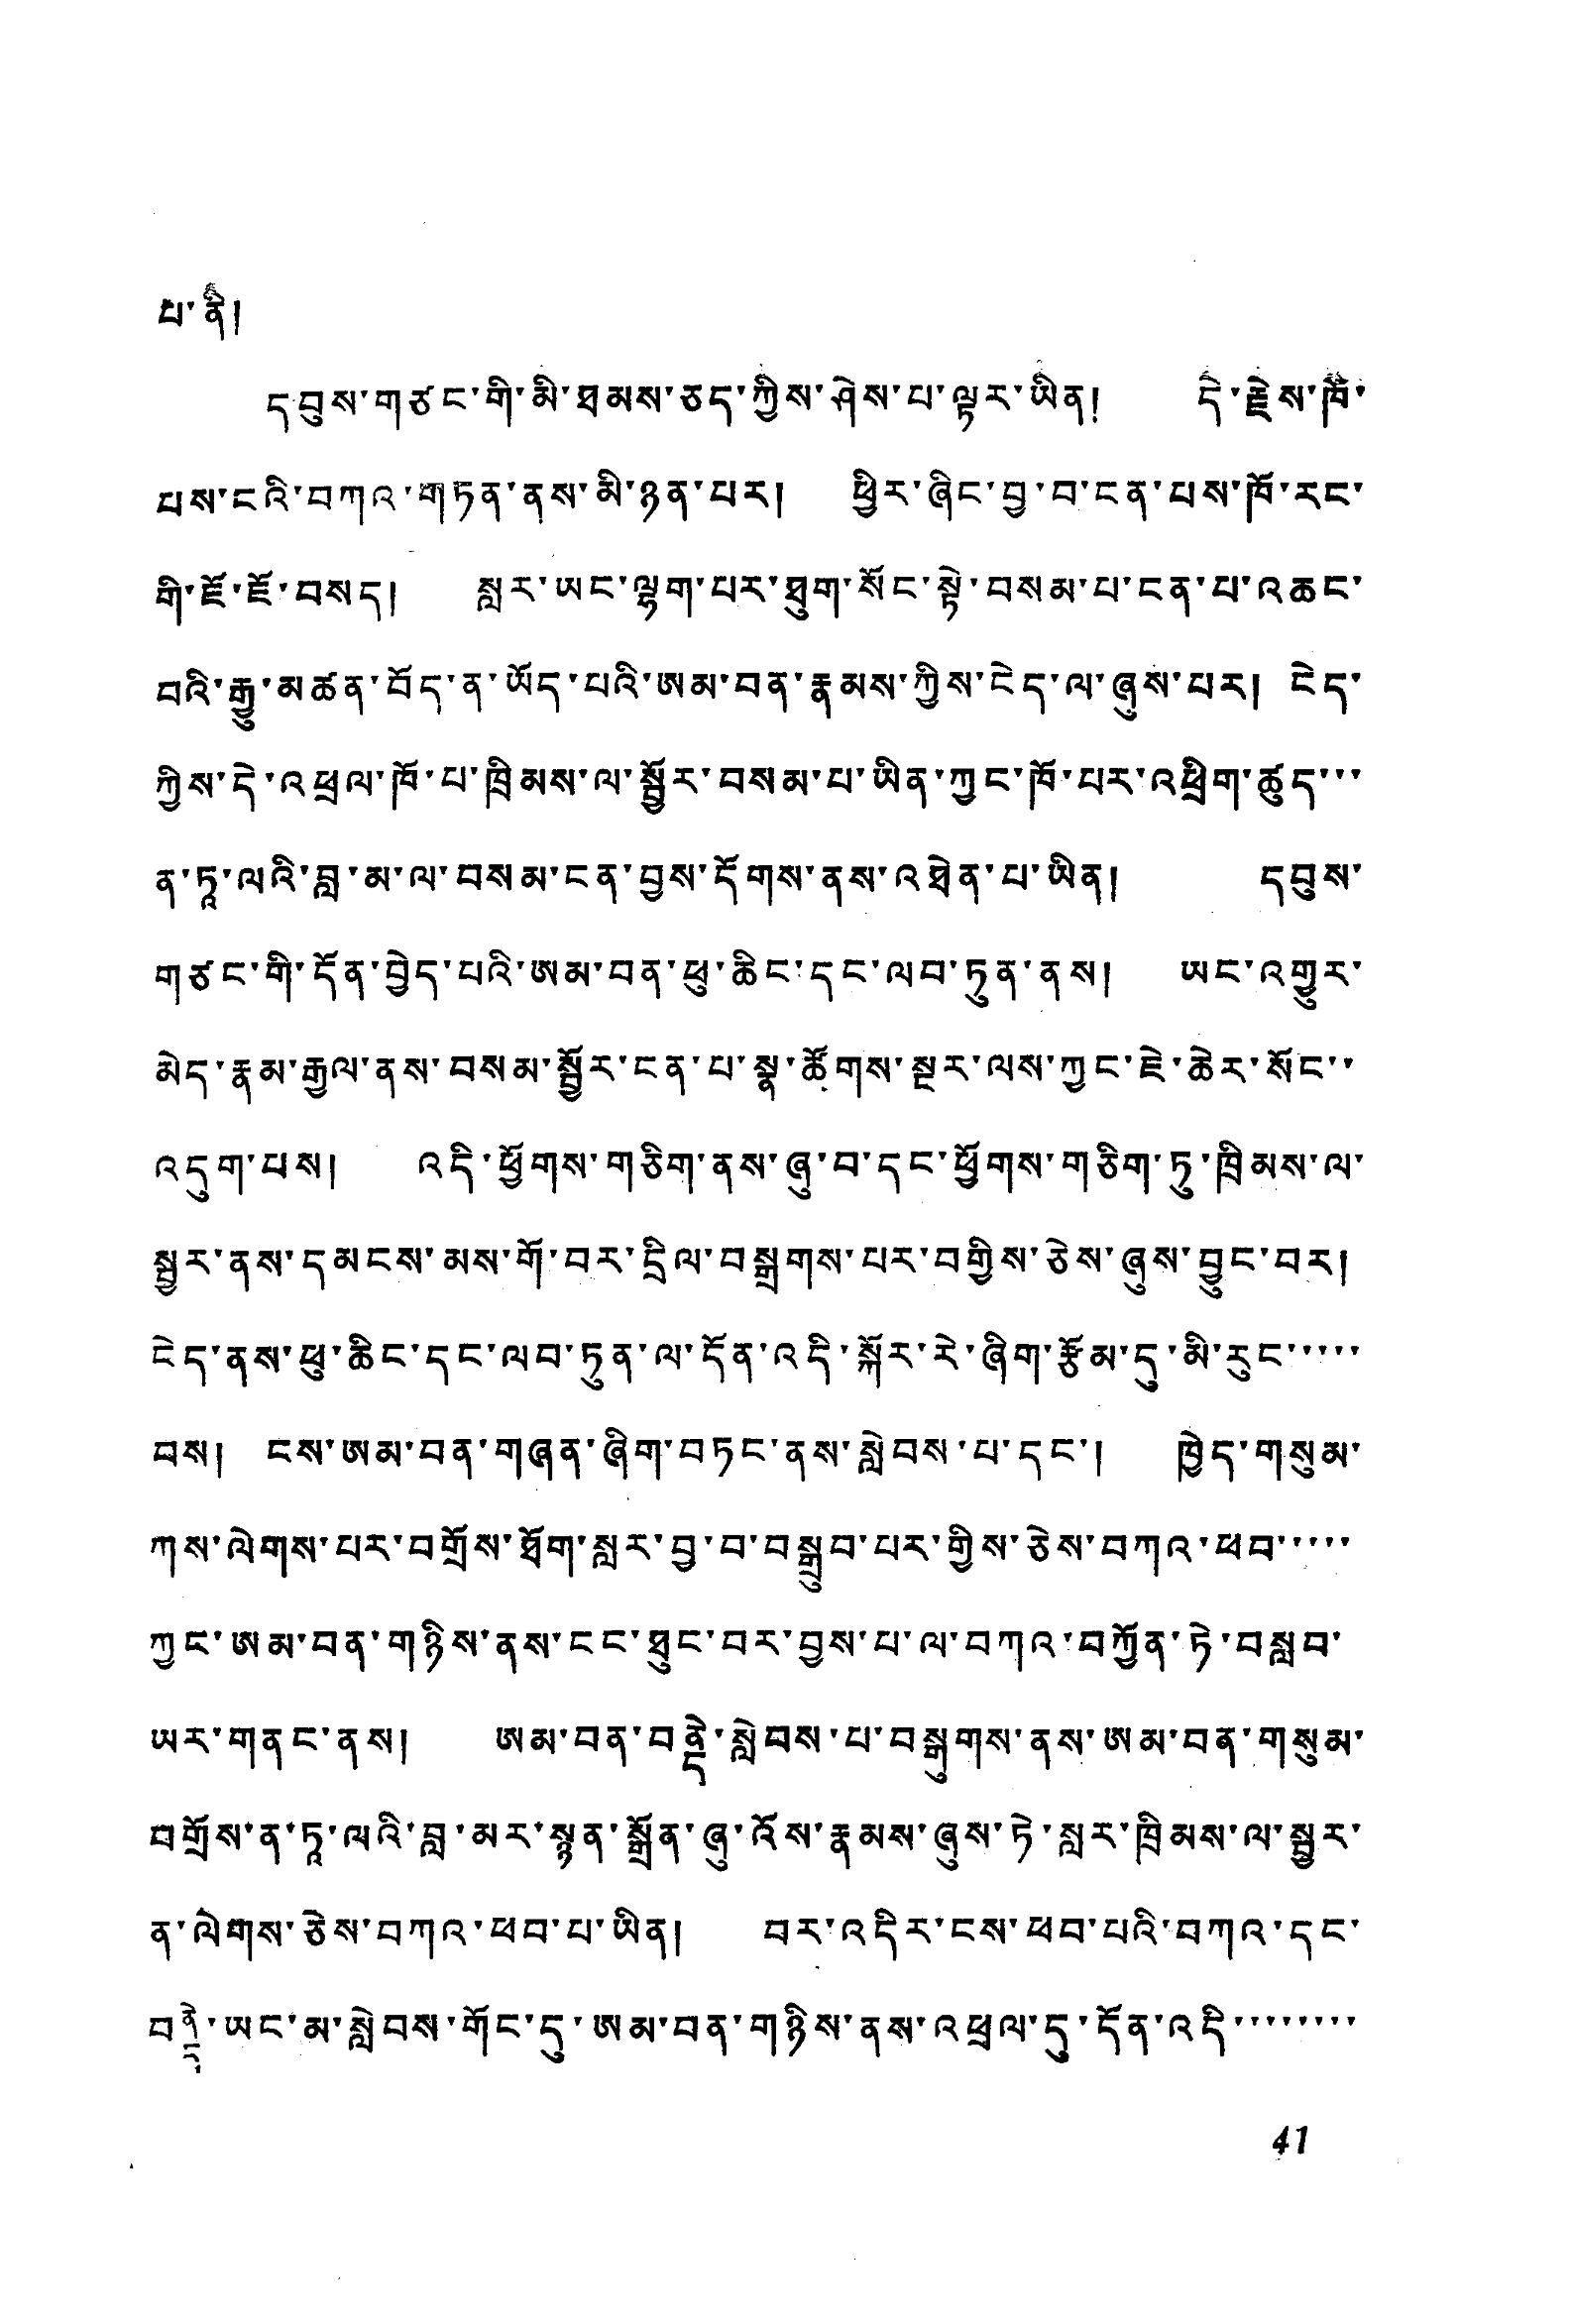པ་ནི།
དབུས་གཙང་གི་མི་ཐམས་ཅད་ཀྱིས་ཤེས་པ་ལྟར་ཡིན། དེ་རྗེས་ཁོ་
པས་ངའི་བཀའ་གཏན་ནས་མི་ཉན་པར། ཕྱིར་ཞིང་བྱ་བ་ངན་པས་ཁོ་རང་
གི་ཇོ་ཇོ་བསད། སླར་ཡང་ལྷག་པར་ཐུག་སོང་སྟེ་བསམ་པ་ངན་པ་འཆང་
བའི་རྒྱུ་མཚན་བོད་ན་ཡོད་པའི་ཨམ་བན་རྣམས་ཀྱིས་ངེད་ལ་ཞུས་པར། ངེད་
ཀྱིས་དེ་འཕྲལ་ཁོ་པ་ཁྲིམས་ལ་སྦྱོར་བསམ་པ་ཡིན་ཀྱང་ཁོ་པར་འཕྲིག་ཚུད་་་
ན་ཏའ་ལའི་བླ་མ་ལ་བསམ་ངན་བྱས་དོགས་ནས་འཐེན་པ་ཡིན། དབུས་
གཙང་གི་དོན་བྱེད་པའི་ཨམ་བན་ཕུ་ཆིང་དང་ལབ་ཏུན་ནས། ཡང་འགྱུར་
མེད་རྣམ་རྒྱལ་ནས་བསམ་སྦྱོར་ངན་པ་སྣ་ཚོགས་སྔར་ལས་ཀྱང་ཇེ་ཆེར་སོང་་
འདུག་པས། འདི་ཕྱོགས་གཅིག་ནས་ཞུ་བ་དང་ཕྱོགས་གཅིག་ཏུ་ཁྲིམས་ལ་
སྦྱར་ནས་དམངས་མས་གོ་བར་དྲིལ་བསྒྲགས་པར་བགྱིས་ཅེས་ཞུས་བྱུང་བར།
ངེད་ནས་ཕུ་ཆིང་དང་ལབ་ཏུན་ལ་དོན་འདི་སྐོར་རེ་ཞིག་རྩོམ་དུ་མི་རུང་་་་་
བས། ངས་མ་བན་གཞན་ཞིག་བཏང་ནས་སླེབས་པ་དང་། ཁྱེད་གསུམ་
ཀས་ལེགས་པར་བགྲོས་ཐོག་སླར་བྱ་བ་བསྒྲུབ་པར་གྱིས་ཅེས་བཀའ་ཕབ་་་་་
ཀྱང་ཨམ་བན་གཉིས་ནས་ངང་ཐུང་བར་བྱས་པ་ལ་བཀའ་བཀྱོན་ཏེ་བསླབ་
ཡར་གནང་ནས། ཨམ་བན་བནདེ་སླེབས་པ་བསྒུགས་ནས་ཨམ་བན་གསུམ་
བགྲོས་ན་ཏའ་ལའི་བླ་མར་སྙན་སྒྲོན་ཞུ་འོས་རྣམས་ཞུས་ཏེ་སླར་ཁྲིམས་ལ་སྦྱར་
ན་ལེགས་ཅེས་བཀའ་ཕབ་པ་ཡིན། བར་འདིར་ངས་ཕབ་པའི་བཀའ་དང་
བནྡེ་ཡང་མ་སླེབས་གོང་དུ་ཨམ་བན་གཉིས་ནས་འཕྲལ་དུ་དོན་འདི་་་་་་་་
41
